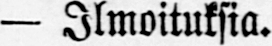— Ilmoituksia.
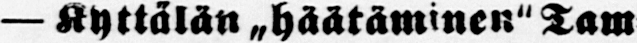— Kyttälän „häätäminen" Tam-
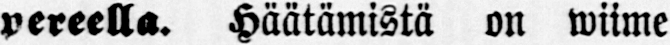pereella. Häätämistä on wiime
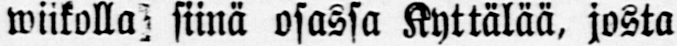wiikolla siinä osassa Kyttälää, josta
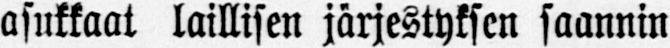asukkaat laillisen järjestyksen saannin
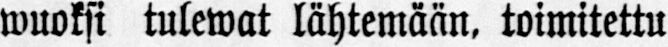wuoksi tulewat lähtemään, toimitettu
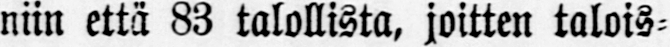niin että 83 talollista, joitten talois-
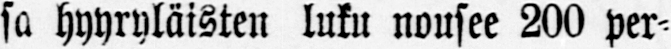sa hyyryläisten luku nousee 200 per-
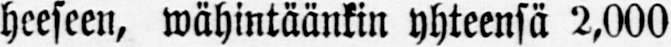heeseen, wähintäänkin yhteensä 2,000
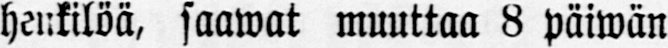henkilöä, saawat muuttaa 8 päiwän
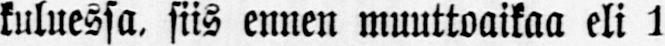kuluessa, siis ennen muuttoaikaa eli 1
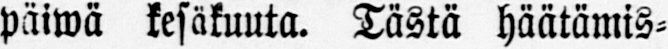päiwä kesäkuuta. Tästä häätämis-
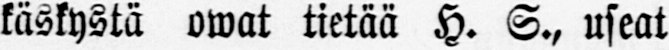käskystä owat tietää H. S., useat
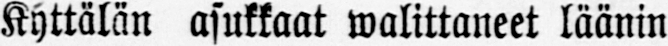Kyttälän asukkaat walittaneet läänin
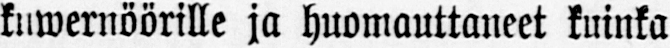kuwernöörille ja huomauttaneet kuinka
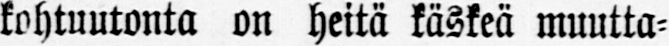kohtuutonta on heitä käskeä muutta-
